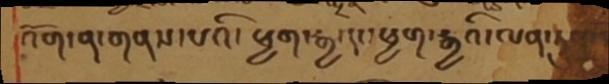འོག་ན་གནས་པའི་ཕྱག་རྒྱ་དང་ཕྱག་རྒྱའི་ལན་ཏུ
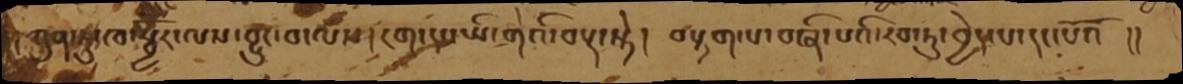ཀུན་ཏུ་ཁ་སྦྱོར་ལས་བྱུང་བ་ལས། ངག་དང་ཡི་གེའི་བརྡ་སྟེ། བརྟག་པ་བཞི་པའི་རབ་ཏུ་བྱེད་པ་དང་པོའོ །།
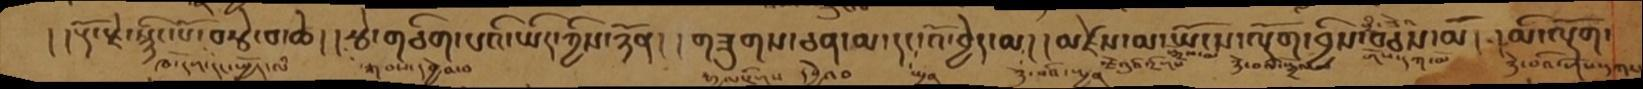། །རྡོ་རྗེ་སྙིང་པོ་བརྩེ་བ་ཆེ། །རྩེ་གཅིག་པའི་ཡིད་ཀྱིས་ཉོན། །གཟུགས་ཅན་མ་དང་འོ་བྱེད་མ། །མཛེས་མ་ཡོངས་ལྡོག་བྱིས་བཅས་མོ། །མི་ལྡོག་
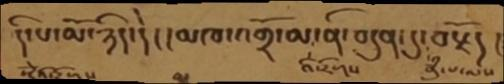དི་པ་མོ་ཉིད་དེ། །མཁ་འགྲོ་མ་ནི་བདུན་དུ་བརྗོད །
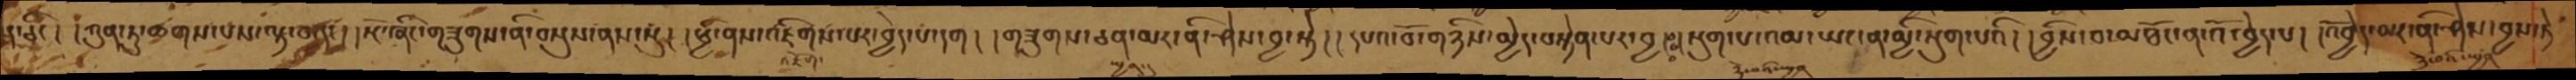ད་ཅིང ། །ཀུན་ཏུ་ཆགས་པས་ལྟ་བ་དང། །སྔོ་ཞིང་གཟུགས་ནི་བསྡུས་ནས་སུ། །ཕྱི་ནས་འཇིགས་པར་བྱེད་པ་དག། །གཟུགས་ཅན་མར་ནི་ཤེས་བྱ་སྟེ། །དཔའ་བོ་གཉིས་མྱེད་བསྟེན་པར་བྱ།ཿ །སྡུག་པ་འམ་ཡང་ན་མྱི་སྡུག་པའི། །བྱིས་པ་མཐོང་ན་འོ་བྱེད་པ། །འོབྱེར་མར་ནི་ཤེས་བྱས་ཏེ
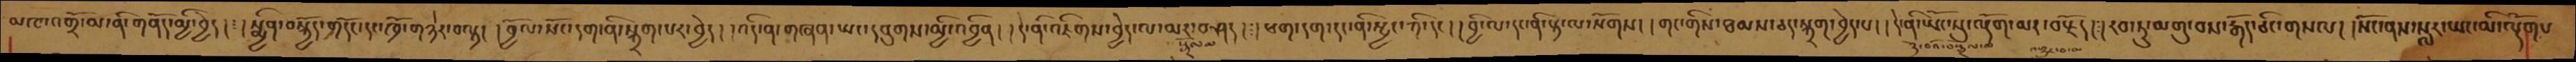མཁ་འགྲོ་མ་ནི་གནོད་མྱི་བྱེད། །སྨྱིན་བསྐྱོད་གདོང་དང་ཁྲོ་གཉེར་བལྟ། །བྱོལ་སོང་དག་ནི་སྐྲག་པར་བྱེད། །འདི་ན་གཞན་ཡང་དབུགས་མྱི་འབྱིན། །དེ་ནི་འཇིགས་བྱེད་ལ་མར་བཤད། །ཕག་དག་དང་ནི་སྤྱང་ཀི་དང། །བྱི་ལ་དང་ནི་རྟ་ལ་སོགས། །གང་གིས་ཐམས་ཅད་སྐྲག་བྱེད་པ། །དེ་ནི་ཡོང་སུ་ལྡོག་མར་བརྗོད། །རབ་ཏུ་མགུ་བས་རྒོད་ཅིང་གསལ། །སོང་ནས་སླར་ཡང་མི་ལྡོགས
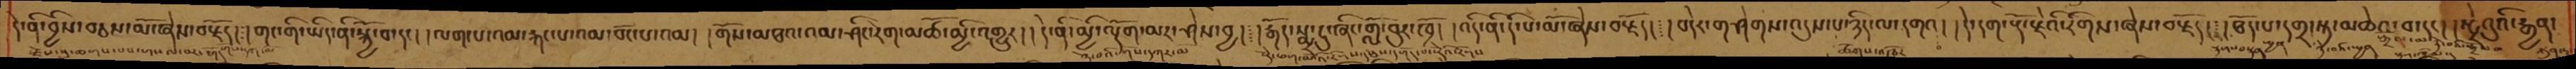དེ་ནི་བྱིས་བཅས་མོ་ཞེས་བརྗོད།།གང་གི་ཡིད་ནི་སྐྱོ་བ་དང། །ལག་པ་འམ་རྐང་པ་འམ་བོང་པ་འམ།།གོས་མཐའ་འམ་ཤིང་རེག་མཚོ་མྱི་འགྱུར།།དེ་ནི་མྱི་ལྡོག་མར་ཤེས་བྱ།།རྒོད་སྨྲ་ངུ་ཞིང་གློ་བུར་ཁྲོ། །འདི་ནི་དི་པ་མོ་ཞེས་བརྗོད། །བདེར་གགཤེགས་འདུས་པ་ཉིད་ལ་དགའ། །དེ་དག་རྡོ་རྗེའི་རིགས་ཞེས་བརྗོད།།ཐོད་པ་དགྲ་སྟ་མཆེའ་བ་དང།།སྨྲེའུའི་རྒྱན་
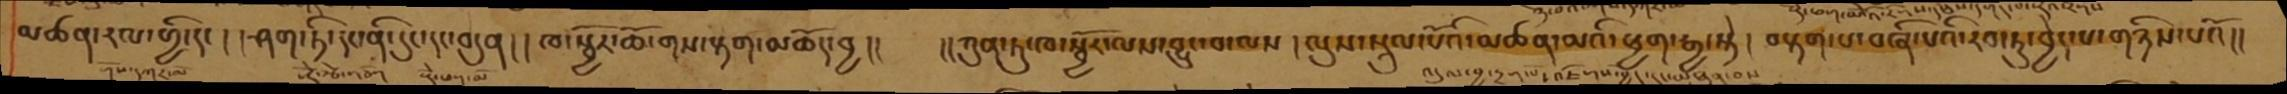མཚན་རལ་གྱི་དང་།།ཤག་ཏི་དང་ནི་དུང་དང་བདུན།།ཁ་སྦྱོར་ཆོ་གས་རྟག་མཆོད་བྱ།།  །།ཀུན་ཏུ་ཁ་སྦྱོར་ལས་བྱུང་བ་ལས །ལུས་སྲུལ་པོའི་མཚན་མའི་ཕྱག་རྒྱ་སྟེ། བརྟག་པ་བཞི་པའི་རབ་ཏུ་བྱེད་པ་གཉིས་པའོ།།
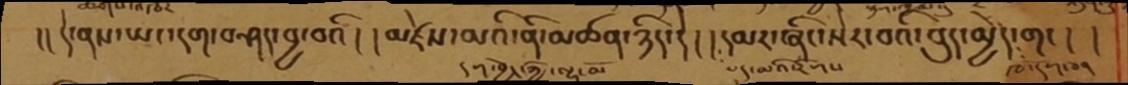།། དེ་ནས་ཡང་དག་བཤད་བྱ་བའི།།མཛེས་མའི་ནི་མཚན་ཉིད་དེ།།དམར་ཞིང་སེར་བའི་བུད་མྱེད་གང །།
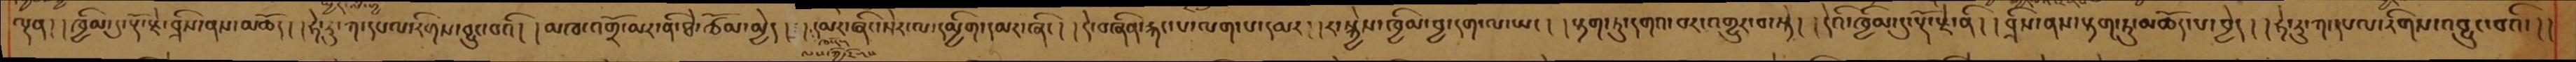ལྡན། །ཁྱིམ་དུ་རྡོ་རྗེ་བྲིས་ནས་མཆོད། །ཧེ་རུ་ཀ་དཔལ་རིགས་བྱུང་བའི། །མཁ་འགྲོ་མར་ནི་ཐེ་ཚོམ་མྱེད། །དམར་ཞིང་སེར་ལ་དམྱིག་དམར་ཞིང།།དེ་བཞིན་རྐང་པ་ལག་པ་དམར།།རང་སྐྱེས་ཁྱིམ་བྱ་དག་ལ་ཡང།།རྟག་ཏུ་དགའ་བར་འགྱུར་བ་སྟེ། །དེའི་ཁྱིམ་དུ་རྡོ་རྗེ་ནི།།བྲིས་ནས་རྟག་ཏུ་མཆོད་པ་བྱེད།།ཧེ་རུ་ཀ་དཔལ་རིགས་འབྱུང་བའི་།།
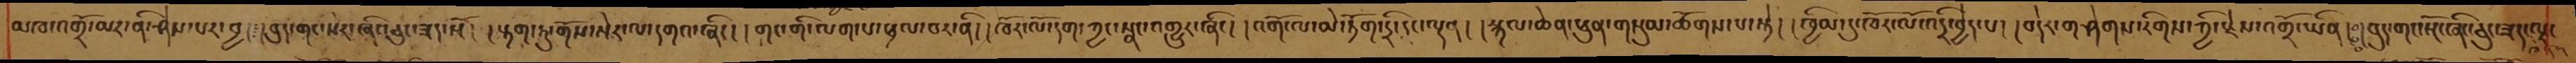མཁ་འགྲོ་མར་ནི་ཤེས་པར་བྱ།།བུད་གང་སེར་ཞིང་ཅུང་ཟད་སོ། །རྟག་ཏུ་གོས་སེར་ལ་དགའ་ཞིང། །གང་གི་ལག་པ་ཕྲལ་བར་ནི།།ཁོར་ལོ་དག་ཀྱང་སྣང་འགྱུར་ཞིང། །འགོ་ལ་མེ་ཏོག་དྲི་དང་ལྡན། །སྐལ་ཆེན་ཕུན་གསུམ་ཚོགས་པ་སྟེ། །ཁྱིམ་དུ་ཁོར་ལོ་འདྲི་བྱེད་པ།།བདེར་གཤེགས་རིགས་ཀྱི་རྗེས་འགྲོ་ཡིན།  ཿ  །བུད་གང་སྔོ་ཞིང་ཅུང་ཟད་ལྗང
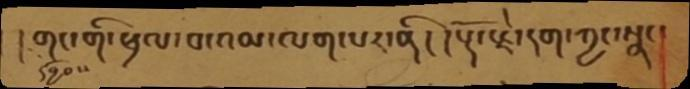།དབྱིབས་གང་གི་ཕྲལ་བ་འམ་ལག་པར་ནི། །རྡོ་རྗེ་དག་ཀྱང་སྣང་
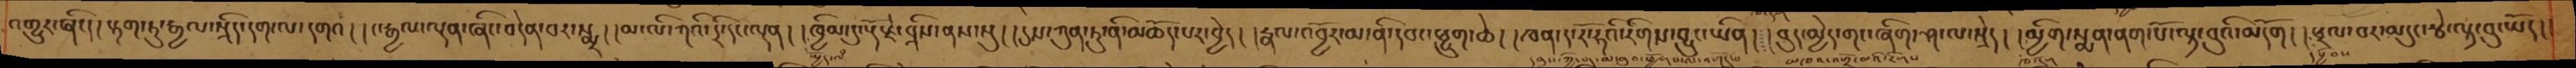འགྱུར་ཞིང། །རྟག་ཏུ་རྒྱལ་སྲིད་དག་ལ་དགའ། །ང་རྒྱལ་ལྡན་ཞིང་བདེན་པར་སྨྲ། །མ་ལི་ཀའི་དྲི་དང་ལྡན། །ཁྱིམ་དུ་རྡོ་རྗེ་བྲིས་ནས་སུ། །དུས་ཀུན་ཏུ་ནི་མཆོད་པར་བྱེད། །རྣལ་འབྱོར་མ་ནི་དབང་ཕྱུག་ཆེ། །ཁན་ད་རོ་ཧའི་རིགས་བྱུང་ཡིན། །བུད་མེད་གང་ཞིག་ཤ་ལ་སྲེད། །མྱིག་སྨན་ནག་པོ་ལྟ་བུའི་མདོག། །ཕྲལ་བར་མདུང་རྩེ་ལྟ་བུ་ཡོད། །
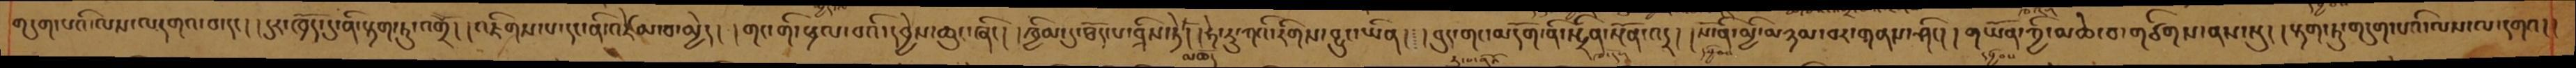གདུག་པའི་ལས་ལདགའ་བ་དང། །དུར་ཁྲོད་དུ་ནི་རྟག་ཏུ་འགྲོ། །འཇིགས་པ་དང་ནི་འཛེམ་བ་མྱེད། །གང་གི་ཕྲལ་བའི་དབྱེས་ཆུང་ཞིང། །ཁྱིམ་དུ་ཐོད་པ་བྲིས་ཏེ་མཆོད། །ཧེ་རུ་ཀའི་རིགས་བྱུང་ཡིན། །བུད་གང་མདོག་ནི་སྤྲིན་སྔོན་འདྲ། །སོ་ནི་མྱི་མཉམ་བར་གནས་ཤིང། །གཡོན་ཀྱི་མཆེ་བ་གཙིགས་ནས་སུ། །རྟག་ཏུ་གདུག་པའི་ལས་ལ་དགའ། །
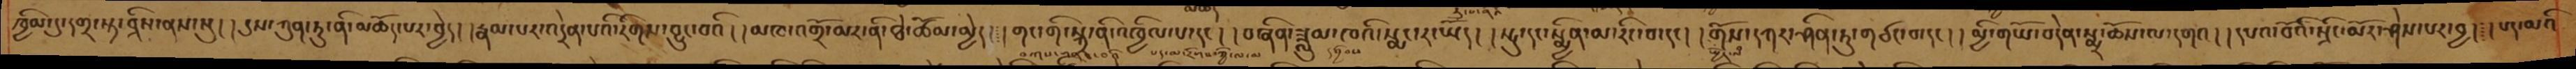ཁྱིམ་དུ་དགྲ་སྟ་བྲིས་ནས་སུ། །དུས་ཀུན་ཏུ་ནི་མཆོད་པར་བྱེད། །རྣམ་པར་འདྲེན་པའི་རིགས་བྱུང་བའི། །མཁ་འགྲོ་མར་ནི་ཐེ་ཚོམ་མྱེད། །གང་གི་སྐྲ་ནི་འཁྱིལ་པ་དང། །བཞིན་ཟླུམ་ཁའི་སྨང་ར་ཡོད། །སྤུ་དང་སྨྱིན་མ་རིང་བ་དང། །གོས་དཀར་ཤིན་ཏུ་གཙང་བ་དང། །མྱི་གཡོ་བདེན་སྨྲ་ཆོས་ལ་དགའ། །དཔའ་བོའི་སྲིང་མོར་ཤེས་པར་བྱ། །པད་མའི
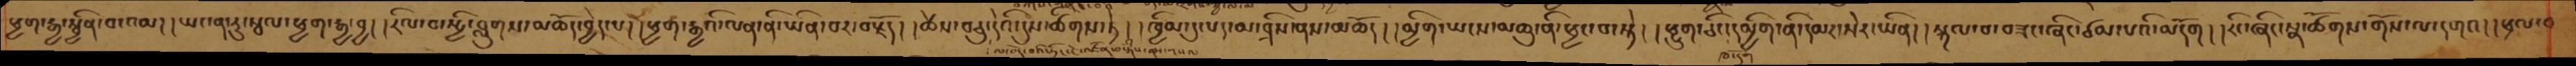ཕྱག་རྒྱ་སྦྱིན་བ་འམ། །ཡང་ན་རུ་སྦལ་ཕྱག་རྒྱ་བྱ། །རིལ་བ་སྤྱི་བླུགས་མཆོད་བྱེད་པ། །ཕྱག་རྒྱའི་ལན་ནི་ཡིན་པར་བརྗོད། །ཚེས་བཅུ་དེའི་དུས་ཚིགས་ཏེ། །ཁྱིམ་དུ་པད་མ་བྲིས་ནས་མཆོད། །མྱིག་ཡངས་མཆུ་ནི་ཕྱང་བ་སྟེ། །ཕྱུག་ཅིང་དམྱིག་ནི་དམར་སེར་ཡིན། །སྐལ་བ་བཟང་ཞིང་ཙམ་པའི་མདོག། །རིང་ཞིང་སྣ་ཚོགས་གོས་ལ་དགའ། །ཕྲལ་བ
